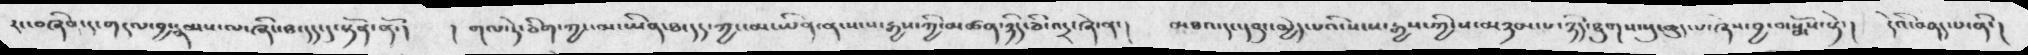རང་བཞིན་དུ་གདུལ་བྱ་རྣམས་ལ་ཞིང་ཐ་དད་དུ་སྟོན་ནོ་།   ། གལ་ཏེ་ཅིག་ཀྱང་མ་ཡིན་ཐ་དད་ཀྱང་མ་ཡིན་ན་སངས་རྒྱས་ཀྱི་མཚན་ཉིད་ཅི་འདྲ་ཞེ་ན་།   མཐའ་དང་དབུང་མྱེད་པའི་སངས་རྒྱས་ཀྱི་ས་མཉམ་པ་ཉིད་ཐུགས་སུ་ཆུད་པ་ཞེས་བྱ་བ་སྨོས་སྟེ་།   དེའི་བཤད་པ་ནི་།
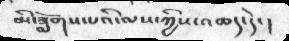མི་ཟློགས་པའི་ལས་ཀྱིས་འཆད་དེ་།
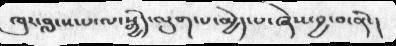ཁུར་བླངས་པ་ལ་སྒྱིད་ལུག་པ་མྱེད་པ་ཞེས་བྱ་བ་ནི་།
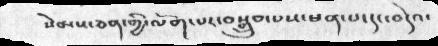སེམས་ཅན་གྱི་ལོག་པར་བསྒྲུབ་པས་ཕན་པ་དང་བདེའ་
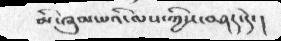མི་ཞུམ་པའི་ལས་ཀྱིས་བཤད་དེ་།
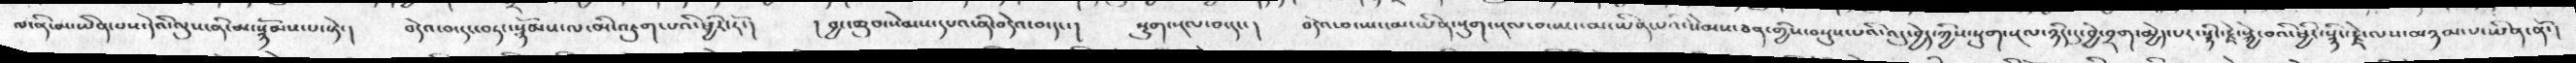ལ་ནི་མ་ཡིན་པས་དེའི་ལུས་ནི་མ་སྙོམས་པ་སྟེ་།  བདེའ་བ་དང་བཏང་སྙོམས་ལ་མི་འཇུག་པའི་ཕྱིར་རོ་།  ། བྱང་ཆུབ་སེམས་དཔའ་ནི་བདེའ་བ་དང་།  སྡུག་སྔལ་བ་དང་།  བདེའ་བ་ཡང་མ་ཡིན་སྡུག་སྔལ་བ་ཡང་མ་ཡིན་པའི་སེམས་ཅན་གྱིས་བསྡུས་པའི་འདུ་བྱེད་ཀྱིས་སྡུག་སྔལ་ཉིད་དུ་བྱེ་བྲག་མྱེད་པར་སྙིང་རྗེ་སྐྱེ་བའི་ཕྱིར་སྙིང་རྗེ་ལས་མཉམ་པ་ཡིན་ནོ་།
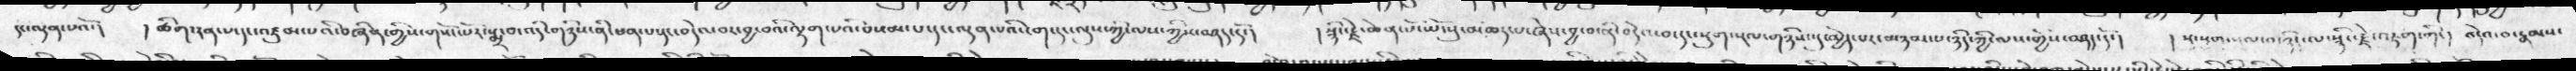དང་ལྡན་པའོ་།   ། ཚིག་རན་པ་དང་འཛུམ་པའི་བཞིན་གྱིས་གསོང་པོར་སྨྲ་བ་འདི་གཉིས་ནི་ཕན་པ་དང་བདེའ་བར་བྱ་བའི་ལྷག་པའི་བསམ་པ་དང་ལྡན་པའི་ངག་དང་ལུས་ཀྱི་ལས་ཀྱིས་བཤད་དོ་།  སྙིང་རྗེ་ཆེན་པོ་ཡོངསུ་མཆད་པ་ཞེས་བྱ་བ་ནི་བདེའ་བ་དང་སྡུག་སྔལ་གཉིས་དུ་མྱེད་པར་མཉམ་པ་ཉིད་ཀྱི་ལས་གྱིས་བཤད་དོ་།    །  སུ་སྡུག་སྔལ་བ་ཉིད་ལ་སྙིང་རྗེ་འཇུག་གི་།   བདེའ་བ་རྣམས་
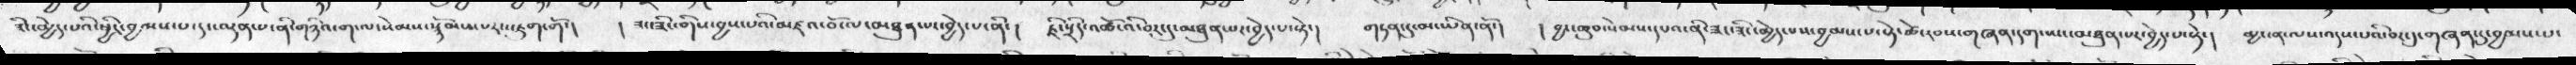ཟིང་མྱེད་པའི་ཕྱིར་བྱམས་པ་དང་ལྡན་པ་ནི་གཉིའ་ག་ལ་སེམས་སྙོམས་པར་འཇུག་གོ་།   ། ཟང་ཟིང་གིས་བྱས་པའི་མཛའ་བོ་ལ་མཐུན་པར་བྱེད་པ་ནི་།   ཇི་སྲེད་འཚོ་འི་བར་དུ་མཐུན་པར་བྱེད་པ་སྟེ་།   གཏན་དུ་མ་ཡིན་ནོ་།   ། བྱང་ཆུབ་སེམས་དཔའ་ནི་ཟང་ཟིང་མྱེད་པས་བྱམས་པ་སྟེ་ཚེ་རབས་གཞན་དག་ཡང་མཐུན་པར་བྱེད་པ་སྟེ་།   མྱ་ངན་ལས་འདས་པའི་བར་དུ་གཞན་དུ་བྱམས་པ་
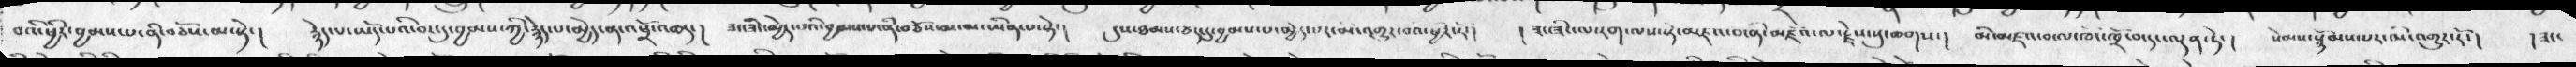བའི་ཕྱིར་བྱམས་པ་ནི་བཅོས་མ་སྟེ་།   རྙེད་པ་ཡོད་པའི་བར་དུ་བྱམས་ཀྱི་རྙེད་པ་མྱེད་ན་འཕྲོ་འཆད་།   ཟང་ཟིང་མྱེད་པའི་བྱམས་པ་ནི་བཅོས་མ་མ་ཡིན་པ་སྟེ་།   དུས་ཐམས་ཅད་དུ་བྱམས་པ་མྱེད་པར་མི་འགྱུར་བའི་ཕྱིར་རོ་།   ། ཟང་ཟིང་ལ་རག་ལས་སྟེ་མཛའ་བ་ནི་མཛེའ་ལ་རྗེས་སུ་ཆགས་།  མི་མཛའ་བ་ལ་ཁོང་ཁྲོ་བ་དང་ལྡན་ཏེ་།    སེམས་སྙོམས་པར་མི་འགྱུར་རོ་།     །ཟང་
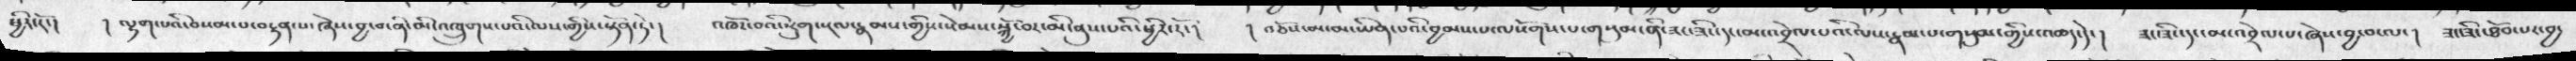ཕྱིར་རོ་།    ། ལྷག་པའི་བསམ་པ་བརྟན་པ་ཞེས་བྱ་བ་ནི་མི་འཁྲུགས་པའི་ལས་གྱིས་སྟོན་ཏེ་།   འཁོར་བའི་སྡུག་སྔལ་རྣམས་གྱིས་སེམས་སྐྱོ་བར་མི་ནུས་པའི་ཕྱིར་རོ་།  ། བཅོས་མ་མ་ཡིན་པའི་བྱམས་པ་ལསོགས་པ་གསུམ་ནི་ཟང་ཟིང་དང་མ་འབྲེལ་པའི་ལས་རྣམ་པ་གསུམ་གྱིས་འཆད་དེ་།   ཟང་ཟིང་དང་མ་འབྲེལ་པ་ཞེས་བྱ་བ་ལ་།   ཟང་ཟིང་ཐོབ་པར་བྱ་
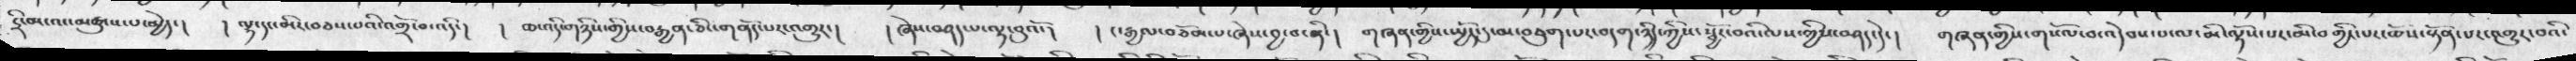དྲི་མ་འང་མཚུངས་པ་མྱེད་།   ། ལྷ་དང་མིར་བཅས་པའི་འགྲོ་བ་འདི་།   ། ཆ་འདི་གཉིས་གྱིས་བརྒྱན་ཅིང་གནོད་པར་འགྱུར་།    ། ཞེས་བཤད་པ་ལྟ་བུའོ་།   ། ང་རྒྱལ་བཅོམ་པ་ཞེས་བྱ་བ་ནི་།   གཞན་གྱིས་སྤྱོད་དུ་མ་བཅུག་པར་བདག་ཉིད་ཀྱིས་སྦྱོར་བའི་ལས་གྱིས་བཤད་དེ་།   གཞན་གྱིས་གསོལ་བ་འདེབས་པ་ལ་མི་ལྟོས་པར་མི་བགྱིང་པར་ཆོས་སྟོན་པར་འགྱུར་བའི་
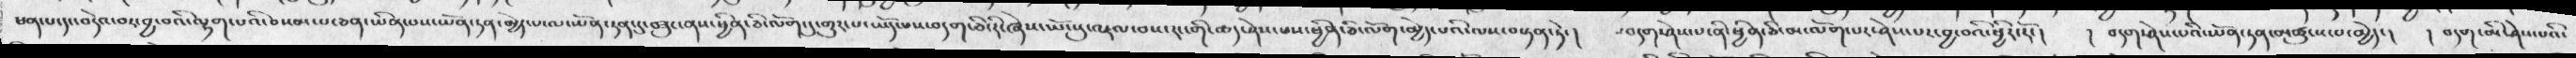ཕན་པ་དང་བདེའ་བར་བྱ་བའི་ལྷག་པའི་བསམ་པ་ཅན་ཡིན་པས་ཡོན་ཏན་མྱེད་པ་ལ་ཡོན་ཏན་དུ་བཟུང་ནས་ཕྱིན་ཅི་ལོག་དུ་གྱུར་པ་ཡོད་པས་བདག་ཅི་རེ་ཞེས་ཡོངསུ་འཇལ་བས་རང་གི་ཆད་ཤེས་པས་ཕྱིན་ཅི་ལོག་མྱེད་པའི་ལས་བསྟན་ཏེ་།  ་བདག་ཤེས་པ་ནི་ཕྱིན་ཅི་མ་ལོག་པར་ཤེས་པར་བྱ་བའི་ཕྱིར་རོ་།  །  བདག་ཤེས་པའི་ཡོན་ཏན་མཚུངས་པ་མྱེད་།  །  བདག་མི་ཤེས་པའི་
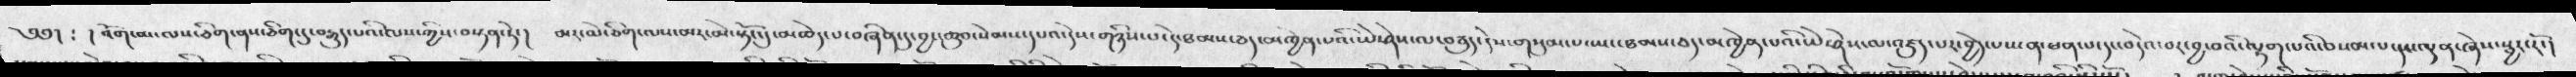༄༅།  ༴  །  འོག་མ་ལས་ཅིག་ནས་ཅིག་དུ་བརྒྱུད་པའི་ལས་ཀྱིས་བསྟན་ཏེ་།  མར་མེ་ཅིག་འམ་མར་མེ་སྟོང་དུ་མཆེད་པ་བཞིན་དུ་བྱང་ཆུབ་སེམས་དཔའ་དེས་གཉིས་པ་དེ་ཐམས་ཅད་མཁྱེན་པའི་ཡེ་ཤེས་ལ་བཅུད་དེས་གསུམ་པ་ཡང་ཐམས་ཅད་མཁྱེན་པའི་ཡེ་ཤེས་འཇུད་པར་བྱེད་པས་ན་ཕན་པ་དང་བདེའ་བར་བྱ་བའི་ལྷག་པའི་བསམ་པ་དང་ལྡན་ཞེས་སྦྱར་རོ་།
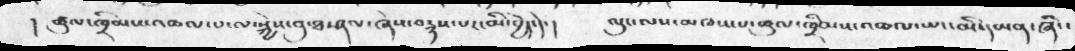། ཚུལ་ཁྲིམས་འཆལ་པ་ལ་སྐྱེས་བུ་ཐ་ཤལ་ཞེས་བརྙས་པར་མི་བྱེད་དེ་།    ལུང་ལས་མཁས་པ་ཚུལ་ཁྲིམས་འཆལ་ཡང་མི་དམན་ཞིང་
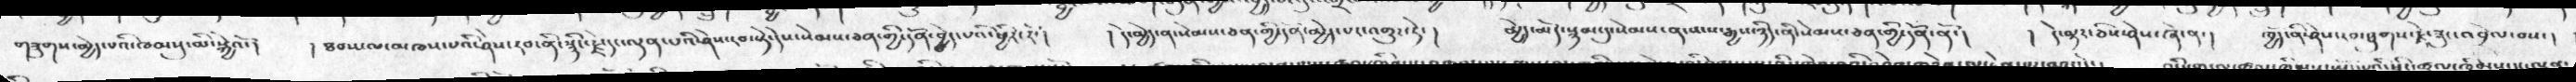གཟུགས་མྱེད་པའི་ཁམསུ་མི་སྐྱེའོ་།  ། ཐབས་ལ་མཁས་པའི་ཤེས་རབ་ནི་སྙིང་རྗེ་དང་ལྡན་པའི་ཤེས་རབ་སྟེ་དེས་སེམས་ཅན་གྱི་དོན་བྱེད་པའི་ཕྱིར་རོ་།  །  དེ་མྱེད་ན་སེམས་ཅན་གྱི་དོན་མྱེད་པར་འགྱུར་ཏེ་།  མྱེད་མདོ་སྙམ་དུ་སེམས་ན་སངས་རྒྱས་ཉིད་ནི་སེམས་ཅན་གྱི་དོན་ནོ་།   །  དེ་ལྟར་ཅིས་ཤེས་ཞེ་ན་།  ཁྱོན་ནི་ཤེས་རབ་ཐུགས་རྗེ་ཟུང་འབྲེལ་བས་།
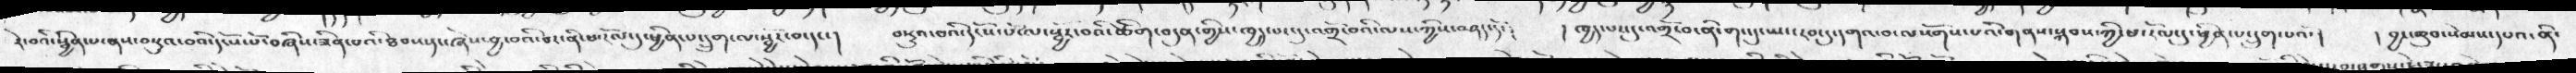རེ་བའི་སྦྱིན་པ་ནས་བསྡུའ་བའི་དངོས་པོ་བཞིས་ཟིན་པའི་ཐབས་དང་ཞེས་བྱ་བའི་ཐར་ནི་ཕ་རོལ་དུ་ཕྱིན་པ་དྲུག་ལ་སྦྱར་བ་དང་།  བསྡུའ་བའི་དངོས་པོ་ལ་སྦྱར་བའི་ཚིག་བདུན་གྱིས་ཁྱད་པར་དུ་འགྲོ་་བའི་ལས་ཀྱིས་བཤད་དོ་༴   །  ཁྱད་པར་དུ་འགྲོ་བ་ནི་གང་དུ་ཡང་རབ་དུ་དགའ་བ་ལསོགས་པའི་གནས་སྐབས་ཀྱི་ཕ་རོལ་དུ་ཕྱིན་པ་དྲུག་པའོ་།  ། བྱང་ཆུབ་སེམས་དཔའ་ནི་
